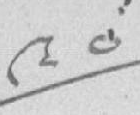༩༠
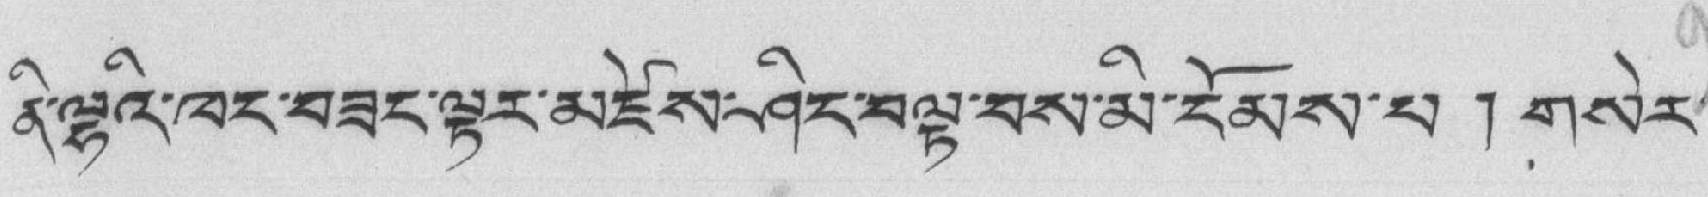ནི་ལྷའི་ཁང་བཟང་ལྟར་མཛེས་ཤིང་བལྟ་བས་མི་ངོམས་པ ། གསེར་
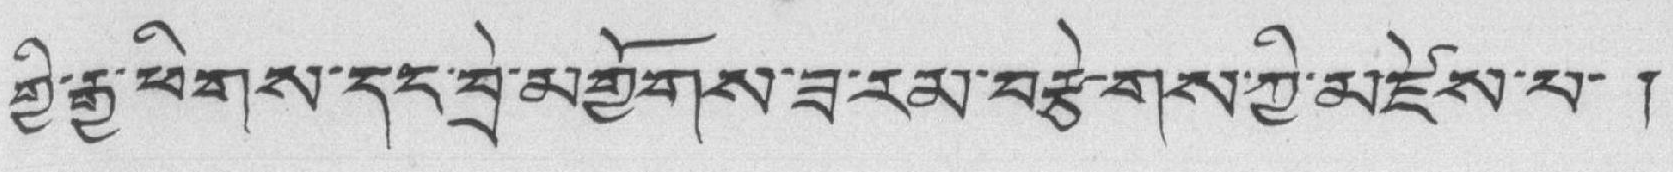གྱི་རྒྱ་ཕིགས་དང་བྲེ་མགྱོགས་ཟ་རམ་བརྩེགས་ཀྱི་མཛེས་པ་ །
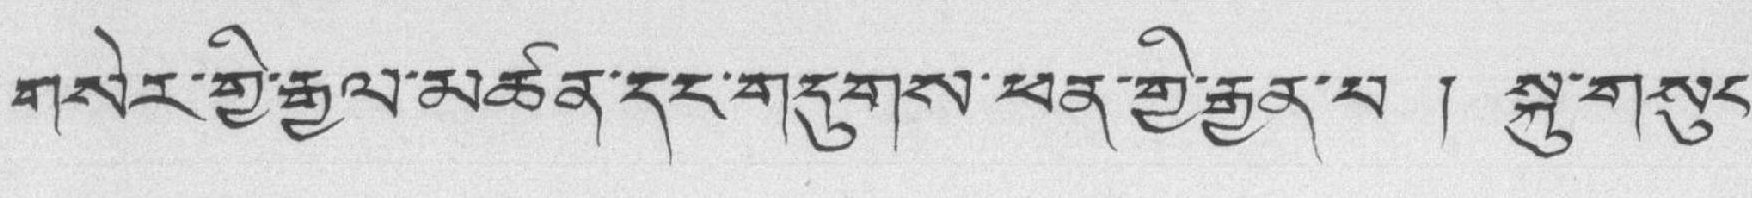གསེར་གྱི་རྒྱལ་མཚན་དང་གདུགས་ཕན་གྱི་རྒྱན་པ ། སྐུ་གསུང་
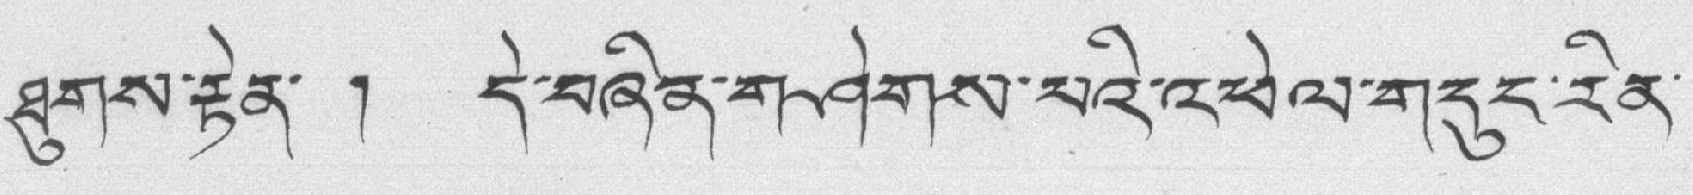ཐུགས་རྟེན་ ། དེ་བཞིན་གཤེགས་པའི་འཕེལ་གདུང་རིན་
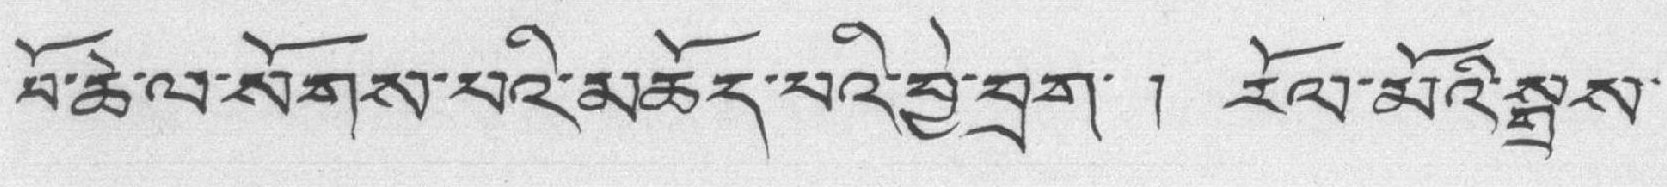བོ་ཆེ་ལ་སོགས་པའི་མཆོད་པའི་བྱེ་བྲག་ ། རོལ་མོའི་སྒྲས་
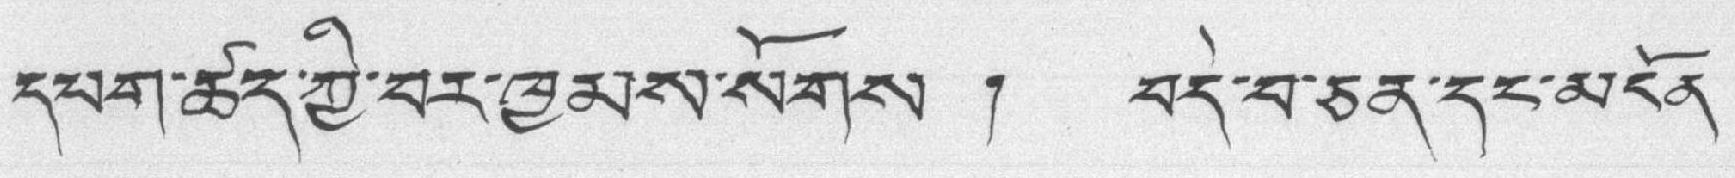དཔག་ཚད་ཀྱི་བར་ཁྱམས་སོགས ། བདེ་བ་ཅན་དང་མངོན་
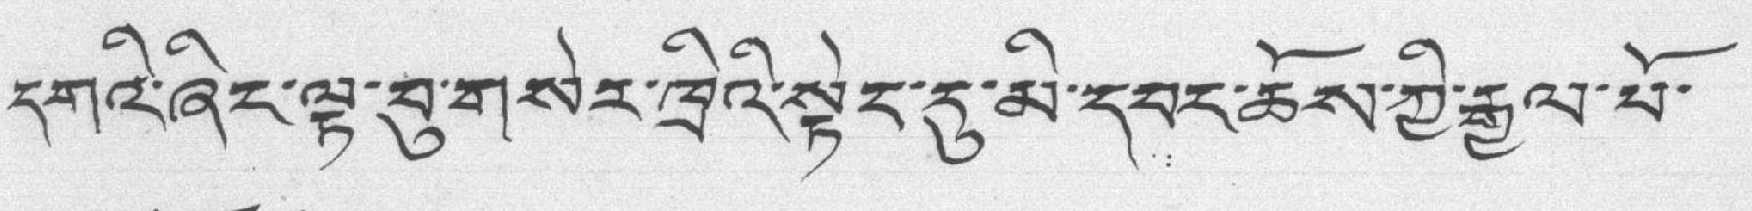དགའི་ཞིང་ལྟ་བུ་གསེར་ཁྲིའི་སྟེང་དུ་མི་དབང་ཆོས་ཀྱི་རྒྱལ་པོ་
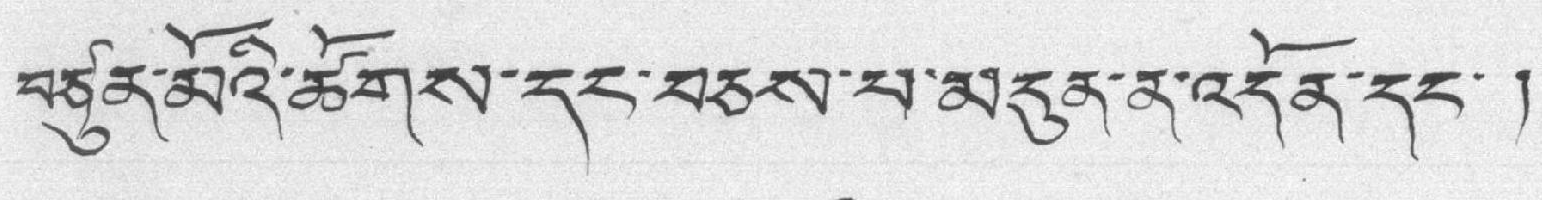བཙུན་མོའི་ཚོགས་དང་བཅས་པ་མདུན་ན་འདོན་དང་ །
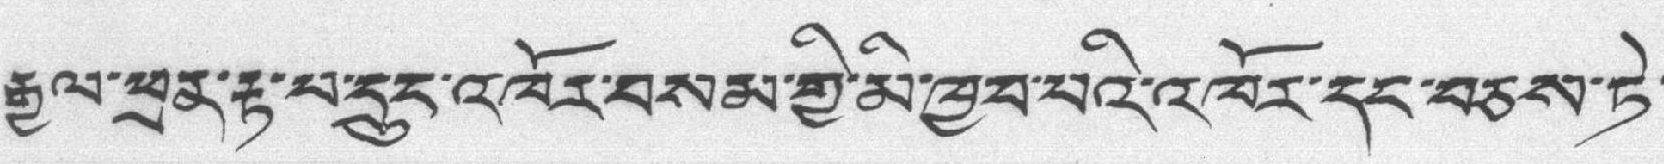རྒྱལ་ཕྲན་རྟ་བ་དྲུང་འཁོར་བསམ་གྱི་མི་ཁྱབ་པའི་འཁོར་དང་བཅས་ཏེ་
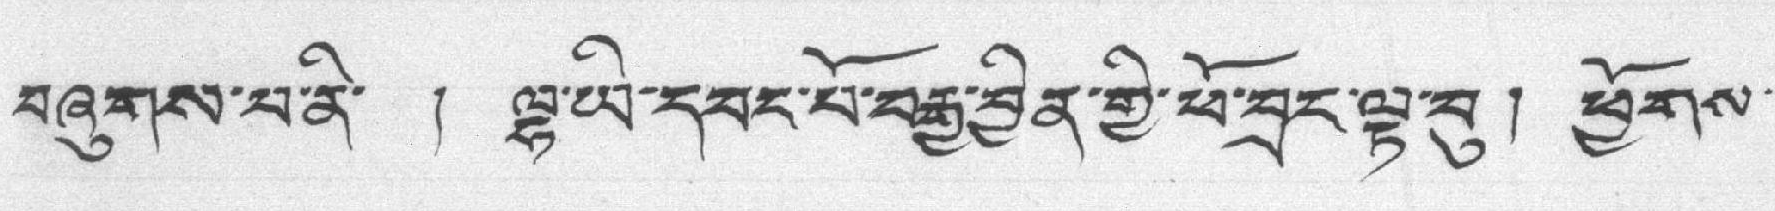བཞུགས་པ་ནི་ ། ལྷ་ཡི་དབང་པོ་བརྒྱ་བྱིན་གྱི་ཕོ་བྲང་ལྟ་བུ ། ཕྱོགས་
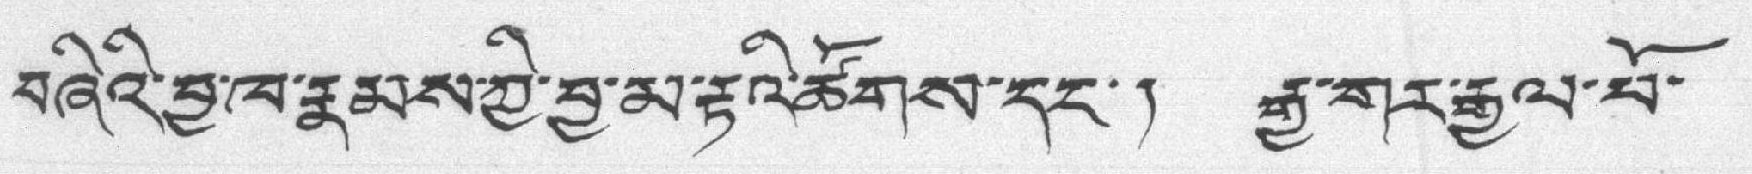བཞིའི་བྱ་ཁ་རྣམས་ཀྱི་བྱ་མ་རྟའི་ཚོགས་དང་། རྒྱ་གར་རྒྱལ་པོ་
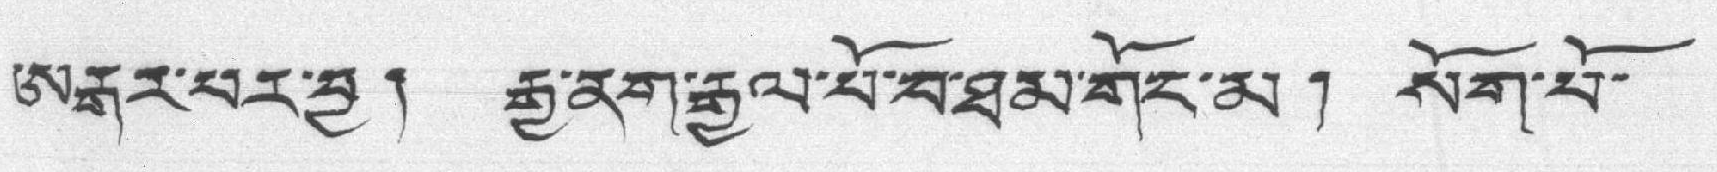ཨརྒར་པར་བྱ། རྒྱ་ནག་རྒྱལ་པོ་བ་ཐམ་གོང་མ། སོག་པོ་
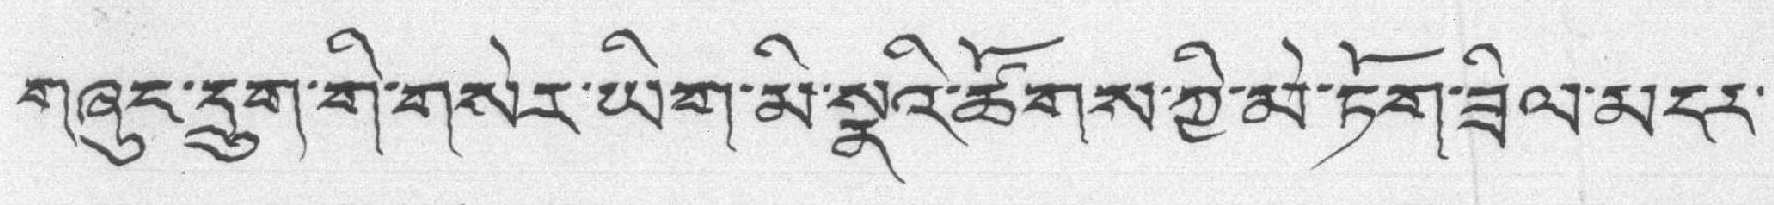གཞུང་དྲུག་གི་གསེར་ཡིག་མི་སྣའི་ཚོགས་ཀྱི་མེ་ཏོག་ཟིལ་མངར་
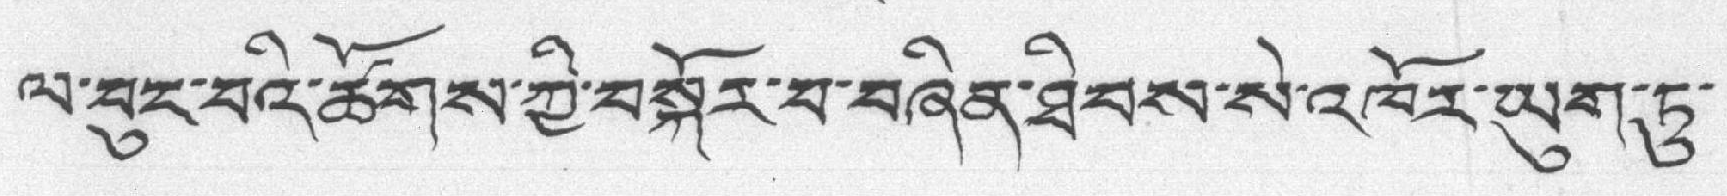ལ་བུང་བའི་ཚོགས་ཀྱི་བསྐོར་པ་བཞིན་ཐིབས་སེ་འཁོར་ཡུག་ཏུ་
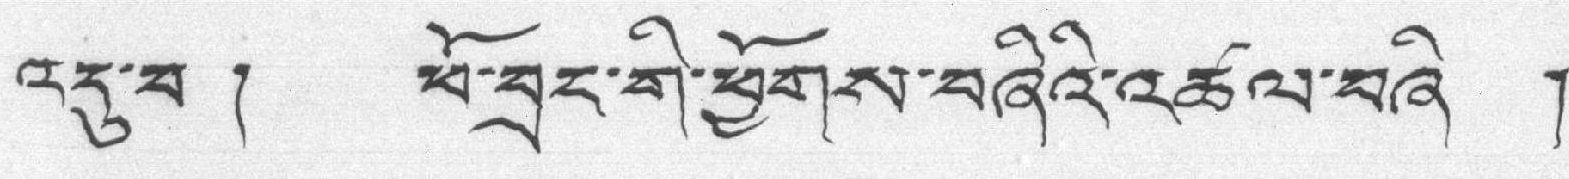འདུ་བ ། ཕོ་བྲང་གི་ཕྱོགས་བཞིའི་འཚལ་བཞི །
